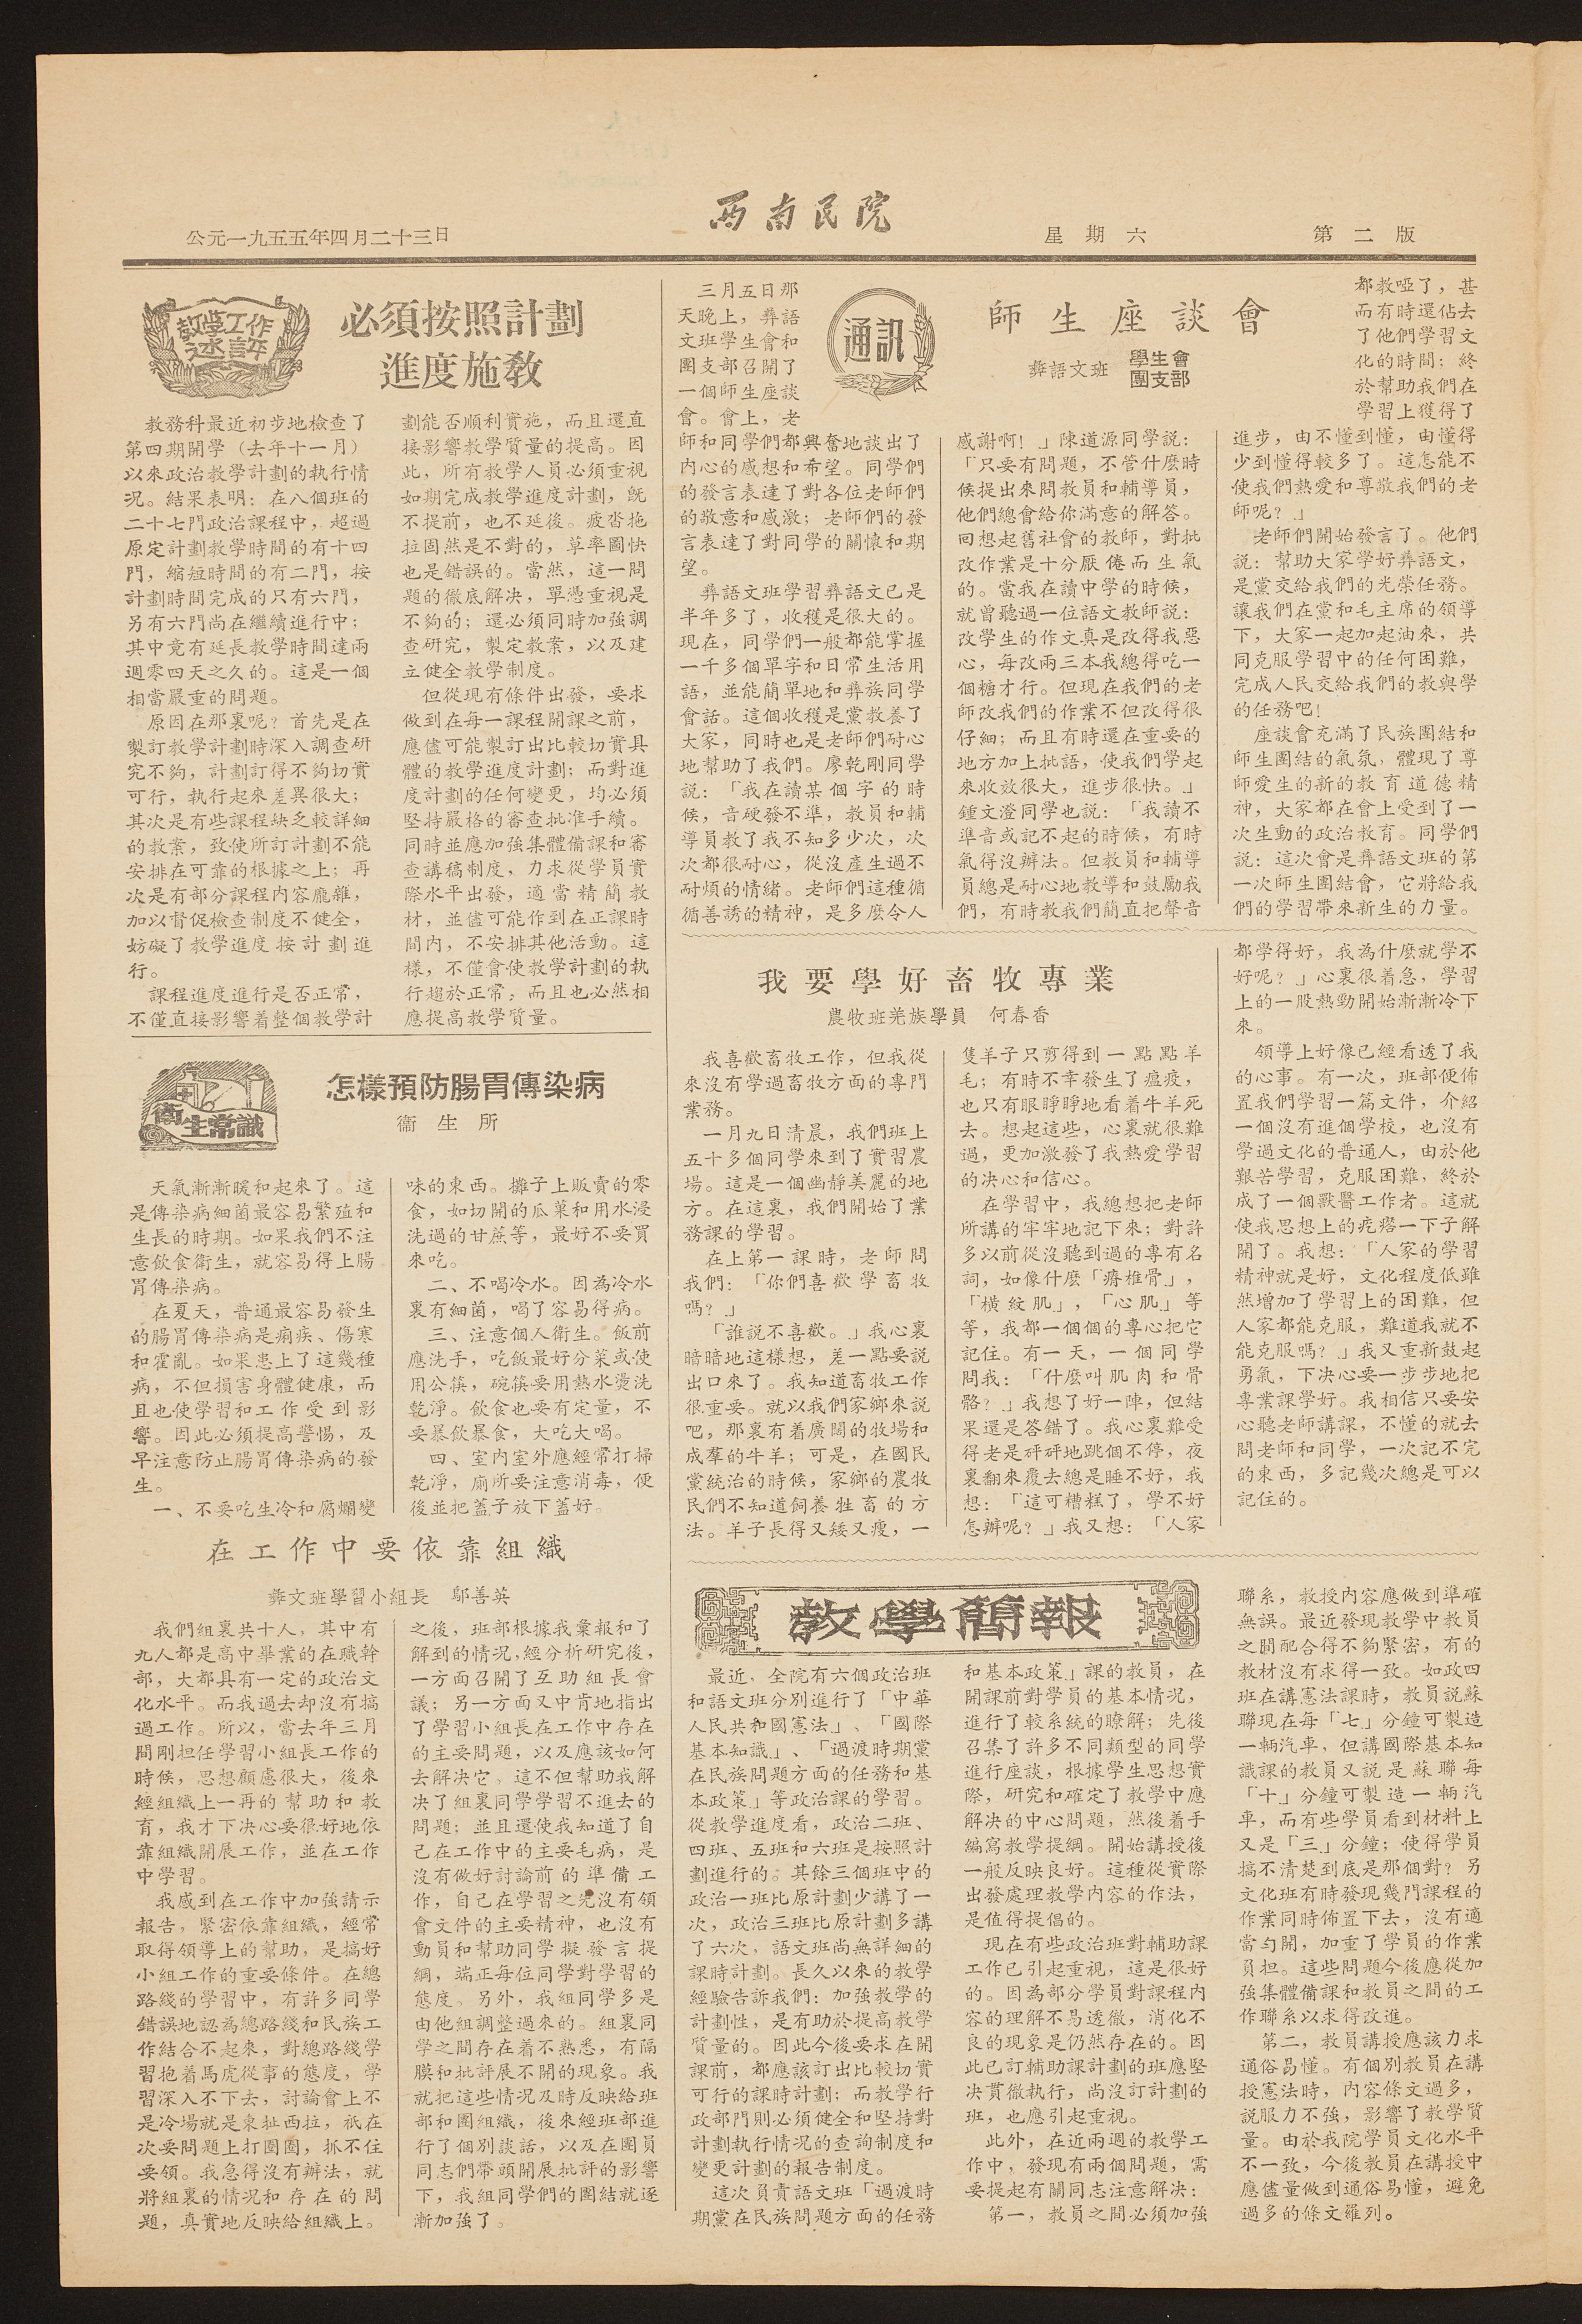公元一九五五年四月二十三日 西南民院 星期六 第二版
教學工作
述評
必須按照計劃
進度施敎
教務科最近初步地檢查了
第四期開學（去年十一月）
以來政治教學計劃的執行情
況。結果表明：在八個班的
二十七門政治課中，超過
原定計劃教學時間的有十四
門，縮短時間的有二門，按
計劃時間完成的只有六門，
另有六門尚在繼續進行中；
其中竟有延長教學時間達兩
週零四天之久的。這是一個
相當嚴重的問題。
元音在那裏呢？首先是在
制訂教學計劃時深入調查研
究不夠，計劃訂得不夠切實
可行，執行起來差異很大；
其次是有些課程缺乏較詳細
的教案，致使所訂計劃不能
安排在可靠的根據之上；再
次是有部分課程內容龐雜，
加以督促檢查制度不健全，
妨礙了敎學進度按計劃進
行。
課程進度進行是否正常，
不僅直接影響着整個教學計
劃能否順利實施，而且還直
接影響教學質量的提高。因
此，所有教學人員必須重視
如期完成教學進度計劃，旣
不提前，也不延後。疲沓拖
拉固然是不對的，草率圖快
也是錯誤的。當然，這一問
題的徹底解決，單憑重視是
不夠的；還必須同時加強調
查研究，制訂教案，以及建
立健全教學制度。
但從現在條件出發，要求
做到在每一課程開課之前，
應儘可能製定出比較切實具
體的教學進度計劃；而對進
度計劃的任何變更，均必須
堅持嚴格的審查批准手續。
同時並應加強集體備課和審
查講稿制度，力求從學員實
際水平出發，適當精簡教
材，並儘可能作到在正課時
間內，不安排其他活動。這
樣，不僅會使教學計劃的執
行趨於正常，而且也必然相
應提高教學質量。
衛生常識
怎樣預防腸胃傳染病
衛 生 所
天氣漸漸暖和起來了。這
是傳染病細菌最容易繁殖和
省長的時期。如果我們不注
意飲食衛生，就容易得上腸
胃傳染病。
在夏天，普通最容易發生
的腸胃傳染病是痢疾、傷寒
和霍亂。如果患上了這幾種
病，不但損害身體健康，而
且也使學習和工作受到影
響。因此必須提高警惕，及
早注意防止腸胃傳染病的發
生。
一、不要吃生冷和腐爛變
味的東西。攤子上販賣的零
食，如切開的瓜菓和用水浸
洗過的甘蔗等，最好不要買
來吃。
二、不喝冷水。因為冷水
裏有細菌，喝了容易得病。
三、注意個人衛生。飯前
應洗手，吃飯最好分菜或使
用公筷，碗筷要用熱水燙洗
乾淨。飲食也要有定量，不
要暴飲暴食，大吃大喝。
四、室內室外應經常打掃
乾淨，廁所要注意消毒，便
後並把蓋子放下蓋好。
在 工 作 中 要 依 靠 組 織
彝文班學習小組長 鄔善英
我們組裏共十人，其中有
九人都是高中畢業的在職幹
部，大都具有一定的政治文
化水平。而我過去並沒有搞
過工作。所以，當去年三月
間剛担任學習小組長工作的
時候，思想顧慮很大，後來
經組織上一再的幫助和教
育，我才下決心要更好地依
靠組織開展工作，並在工作
中學習。
我感到在工作中加強請示
報告，緊密依靠組織，經常
取得領導上的幫助，是搞好
小組工作的重要條件。在總
路綫的學習中，有許多同學
錯誤地認為總路綫和民族工
作結合不起來，對總路綫學
習抱着馬虎從事的態度，學
習深入不下去，討論會上不
是冷場就是東扯西拉，祇在
次要問題上打圈圈，抓不住
要領。我急得沒有辦法，就
將組裏的情況和存在的問
題，真實地反映給組織上。
之後，班部根據我彙報和了
解到的情況，經分析研究後，
一方面召開了互助組長會
議；另一方面又中肯地指出
了學習小組長在工作中存在
的主要問題，以及應該如何
去解決它。這不但幫助我解
決了組裏同學學習不進去的
問題；並且還使我知道了自
己在工作中的主要毛病，是
沒有做好討論前的準備工
作，自己在學習之先沒有領
會文件的主要精神，也沒有
動員和幫助同學擬發言提
綱，端正每位同學對學習的
態度。另外，我組同學多是
由他組調整過來的。組裏同
學之間存在着不熟悉，有隔
膜和批判展不開的現象。我
就把這些情況即使反映給班
部和團組織，後來經班部進
行了個別談話，以及在團員
同志們帶頭開展批判的影響
下，我組同學們的團結就逐
漸加強了。
通訊
師 生 座 談 會
彝語文班
學生會
團支部
三月五日那
天晚上，彝語
文班學生會和
團支部召開了
一個師生座談
會。會上，老
師和同學們都興奮地談出了
內心的感想和希望。同學們
的發言表達了對各位老師們
的敬意和感激；老師們的發
言表達了對同學的關懷和期
望。
彝語文班學習彝語文已是
半年多了，收穫是很大的。
現在，同學們一般都能掌握
一千多個單字和日常生活用
語，並能簡單地和彝族同學
會話。這個收穫是黨教養了
大家，同時也是老師們耐心
地幫助了我們。廖乾剛同學
說：「我在讀某個字的時
候，音硬發不準，教員和輔
導員教了我不知多少次，次
次都很耐心，從沒產生過不
耐煩的情緒。老師們這種循
循善誘的精神，是多么令人
感謝阿！」陳道源同學說：
「只要有問題，不管什麼時
候提出來問教員和輔導員，
他們總會給你滿意的解答。
囘想起舊社會的教師，對批
改作業是十分厭倦而生氣
的。當我在讀中學的時候，
就曾聽過一位語文教師說：
改學生的作文真是改得我惡
心，每改兩三本我總得吃一
個糖才行。但現在我們的老
師改我們的作業不但改得很
仔細；而且有時還在重要的
地方加上批語，使我們學起
來收效很大，進步很快。」
鍾文澄同學也說：「我讀不
準音或記不起的時候，有時
氣得沒辦法。但教員和輔導
員總是耐心地教導和鼓勵我
們，有時教我們簡直把聲音
都教啞了，甚
而有時還佔去
了他們學習文
化的時間；終
於幫助我們在
學習上獲得了
進步，由不懂到懂，由懂得
少到懂得較多了。這怎能不
使我們熱愛和尊敬我們的老
師呢？」
老師們開始發言了。他們
說：幫助大家學好彝語文，
是黨教給我們的光榮任務。
讓我們在黨和毛主席的領導
下，大家一起加起油來，共
同克服學習中的任何困難，
完成人民交給我們的教與學
的任務吧！
座談會充滿了民族團結和
師生團結的氣氛，體現了尊
師愛生的新的教育道德精
神，大家都在會上受到了一
次生動的政治教育。同學們
說：這次會是彝語文班的第
一次師生團結會，它將給我
們的學習帶來新生的力量。
我 要 學 好 畜 牧 專 業
農牧班羌族學員 何春香
我喜歡畜牧工作，但我從
來沒有學過畜牧方面的專門
業務。
一月九日清晨，我們班上
五十多個同學來到了實習農
場。這是一個幽靜美麗的地
方。在這裏，我們開始了業
務課的學習。
在上第一課時，老師問
我們：「你們喜歡學畜牧
嗎？」
「誰說不喜歡。」我心裏
暗暗地這樣想，差一點要說
出口來了。我知道畜牧工作
很重要。就以我們家鄉來說
吧，那裏有着廣闊的牧場和
成羣的牛羊；可是，在國民
黨統治的時候，家鄉的農牧
民們不知道飼養牲畜的方
法。羊子長得又矮又瘦，一
隻羊子只剪得到一點點羊
毛；有時不幸發生了瘟疫，
也只有眼睜睜地看着牛羊死
去。想起這些，心裏就很難
過，更加激發了我熱愛學習
的決心和信心。
在學習中，我總想把老師
所講的牢牢地記下來；對許
多以前從沒聽到過的專有名
詞，如像什麼「瘠椎骨」，
「橫紋肌」，「心肌」等
等，我都一個個的專心把它
記住。有一天，一個同學
問我：「什麼叫肌肉和骨
骼？」我想了好一陣，但結
過還是答錯了。我心裏難受
得老是砰砰地跳個不停，夜
裏翻來覆去總是睡不好，我
想：「這可糟糕了，學不好
怎辦呢？」我又想：「人家
都學得好，我為什麼就學不
好呢？」心裏很着急，學習
上的一股熱勁開始漸漸冷下
來。
領導上好像已經看透了我
的心事。有一次，班部便佈
置我們學習一篇文件，介紹
一個沒有進個學校，也沒有
學過文化的普通人，由於他
艱苦學習，克服困難，終於
成了一個獸醫工作者。這就
使我思想上的疙瘩一下子解
開了。我想：「人家的學習
精神就是好，文化程度低雖
然增加了學習上的困難，但
人家都能克服，難道我就不
能克服嗎？」我又重新鼓起
勇氣，下決心要一步步地把
專業課學好。我相信只要安
心聽老師講課，不懂的就去
問老師和同學，一次記不完
的東西，多記幾次總是可以
記住的。
教學簡報
最近，全院有六個政治班
和語文班分別進行了「中華
人民共和國希憲法」、「國際
基本知識」、「過渡時期黨
在民族問題方面的任務和基
本政策」等政治課的學習。
從教學進度看，政治二班、
四班、五班和六班是按照計
劃進行的。其餘三個班中的
政治一班比原計劃少講了一
次，政治三班比原計劃多講
了六次，語文班尚無詳細的
課時計劃。長久以來的教學
經驗告訴我們：加強教學的
計劃性，是有助於提高教學
質量的。因此今後要求在開
課前，都應該訂出比較切實
可行的課時計劃；而教學行
政部門則必須健全和堅持對
計劃執行情況的查詢制度和
變更計劃的報告制度。
這次負責語文班「過渡時
期黨在民族問題方面的任務
和基本政策」課的教員，在
開課前對學員的基本情況，
進行了較系統的瞭解；先後
召集了許多不同類型的同學
進行座談，根據學生思想實
際，研究和確定了教學中應
解決的中心問題，然後着手
編寫教學提綱。開始講授後
一般反映良好。這種從實際
出發處理教學內容的作法，
是值得提倡的。
現在有些政治班對輔助課
工作已引起重視，這是很好
的。因為部分學員對課程內
容的理解不易透徹，消化不
良的現象是仍然存在的。因
此已訂輔助課計劃的班應堅
決貫徹執行，尚沒訂計劃的
班，也應引起重視。
此外，在近兩週的教學工
作中，發現有兩個問題，需
要提起有關同志注意解決：
第一，教員之間必須加強
聯系，教授內容應做到準確
無誤。最近發現教學中教員
之間配合得不夠緊密，有的
教材沒有求得一致。如政四
班在講憲法課時，教員說蘇
聯現在每「七」分鐘可製造
一輛汽車，但講國際基本知
識課的教員又說是蘇聯每
「十」分鐘可製造一輛汽
車，而有些學員看到材料上
又是「三」分鐘；使得學員
搞不清楚到底是那個對？另
文化班有時發現幾門課程的
作業同時佈置下去，沒有適
當勻開，加重了學員的作業
負擔。這些問題今後應從加
強集體備課和教員之間的工
作聯系以求得改進，
第二，教員講授應該力求
通俗易懂。有個別教員在講
授憲法時，內容條文過多，
說服力不強，影響了教學質
量。由於我院學員文化水平
不一致，今後教員在講授中
應儘量做到通俗易懂，避免
過多的條文羅列。
